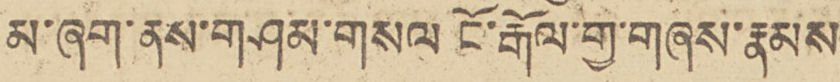མ་ཞག་ནས་གཤམ་གསལ ངོ་རྒོལ་གྱ་གཞས་རྣམས་
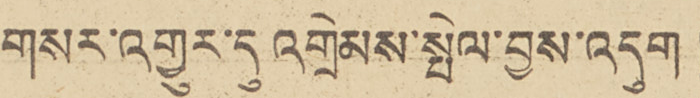གསར་འགྱུར་དུ འགྲེམས་སྤེལ་བྱས་འདུག །
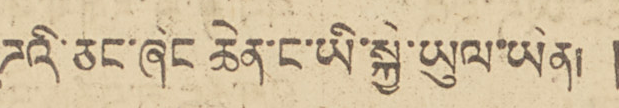ཌའི་ཅང་ཞིང ཆེན་ང་ཡི་སྐྱེ་ཡུལ་ཡིན། །
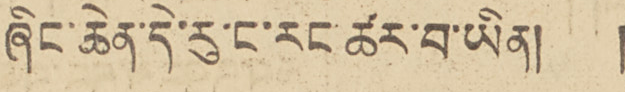ཞིང་ཆེན་དེ་རུ་ང་རང་ཚར་བ་ཡིན། །
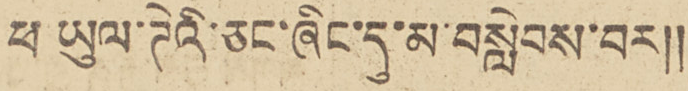ཕ ཡུལ་ཊེའི་ཅང་ཞིང་དུ་མ་བསླེབས་བར།།
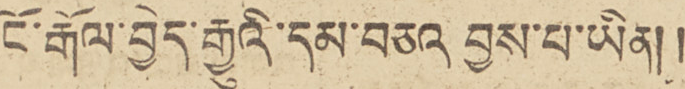ངོ་རྒོལ་བྱེད་རྒྱུའི་དམ་བཅའ བྱས་པ་ཡིན།།
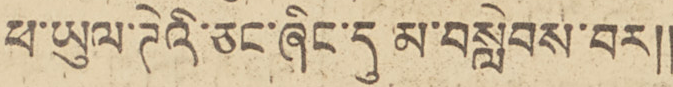ཕ་ཡུལ་ཊེའི་ཅང་ཞིང་དུ་མ་སླེབས་བར།།
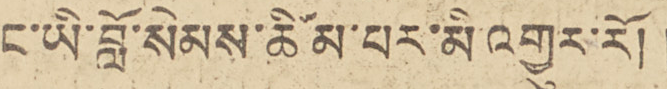ང་ཡི་བློ་སེམས་ཚིམ་པར་མི་འགྱུར་རོ། །
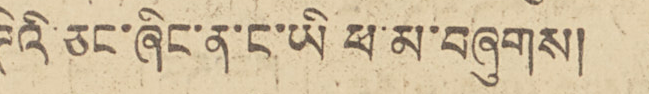ཊེའི་ཅང་ཞིང་ན་ང་ཡི ཕ་མ་བཞུགས། །
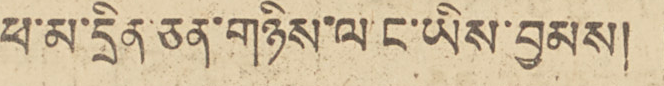ཕ་མ་དྲིན་ཅན་གཉིས་ལ་ང་ཡིས་བྱམས། །
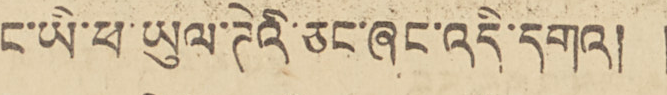ང་ཡི་ཕ་ཡུལ་ཊེའི་ཅང་ཞང་འདི་དགའ། །
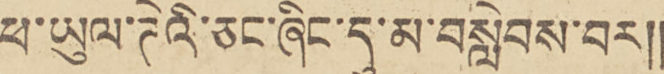ཕ་ཡུལ་ཊེའི་ཅང་ཞིང་དུ་མ་སླེབས་བར།།
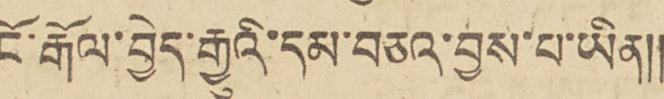ངོ་རྒོལ་བྱེད་རྒྱུའི་དམ་བཅའ་བྱས་པ་ཡིན།།
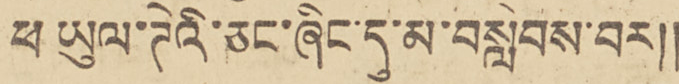ཕ ཡུལ་ཊེའི་ཅང་ཞིང་དུ་མ་བསླེབས་བར།།
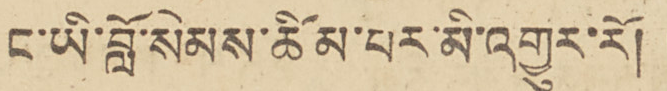ང་ཡི་བློ་སེམས་ཚིམ་པར་མི་འགྱུར་རོ། །
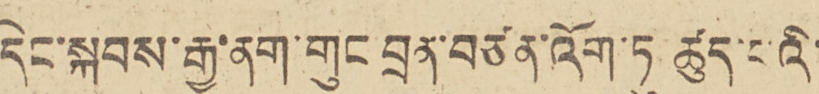དེང་སྐབས་རྒྱ་ནང་གུང བྲན་བཙན་འོག་ཏུ ཚུད་པའི་
